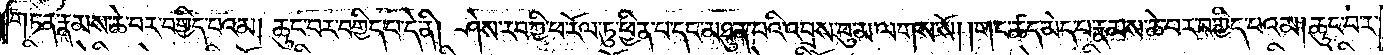གཏན་རྣམས་ཆེ་བར་བགྱིད་པའམ། ཆུང་བར་བགྱིད་པ་དེ་ནི། ཤེས་རབ་ཀྱི་ཕ་རོལ་ཏུ་ཕྱིན་པ་དང་མཐུན་པའི་འབྲས་བུ་མ་ལགས་སོ། །གང་ཚད་མེད་པ་རྣམས་ཆེ་བར་བགྱིད་པའམ། ཆུང་བར་
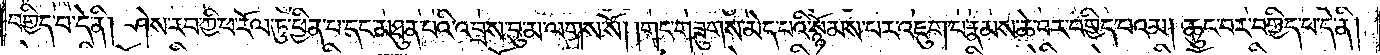བགྱིད་པ་དེ་ནི། ཤེས་རབ་ཀྱི་ཕ་རོལ་ཏུ་ཕྱིན་པ་དང་མཐུན་པའི་འབྲས་བུ་མ་ལགས་སོ། །གང་གཟུགས་མེད་པའི་སྙོམས་པར་འཇུག་པ་རྣམས་ཆེ་བར་བགྱིད་པའམ། ཆུང་བར་བགྱིད་པ་དེ་ནི།
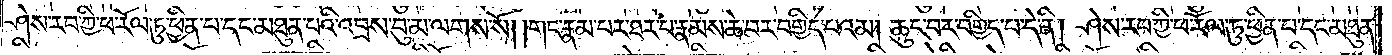ཤེས་རབ་ཀྱི་ཕ་རོལ་ཏུ་ཕྱིན་པ་དང་མཐུན་པའི་འབྲས་བུ་མ་ལགས་སོ། །གང་རྣམ་པར་ཐར་པ་རྣམས་ཆེ་བར་བགྱིད་པའམ། ཆུང་བར་བགྱིད་པ་དེ་ནི། ཤེས་རབ་ཀྱི་ཕ་རོལ་ཏུ་ཕྱིན་པ་དང་མཐུན་
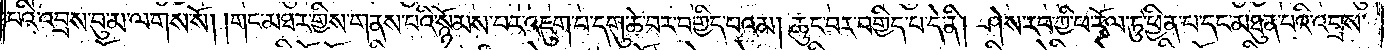པའི་འབྲས་བུ་མ་ལགས་སོ། །གང་མཐར་གྱིས་གནས་པའི་སྙོམས་པར་འཇུག་པ་དགུ་ཆེ་བར་བགྱིད་པའམ། ཆུང་བར་བགྱིད་པ་དེ་ནི། ཤེས་རབ་ཀྱི་ཕ་རོལ་ཏུ་ཕྱིན་པ་དང་མཐུན་པའི་འབྲས་
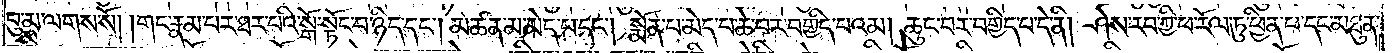བུ་མ་ལགས་སོ། །གང་རྣམ་པར་ཐར་པའི་སྒོ་སྟོང་པ་ཉིད་དང༌། མཚན་མ་མེད་པ་དང༌། སྨོན་པ་མེད་པ་ཆེ་བར་བགྱིད་པའམ། ཆུང་བར་བགྱིད་པ་དེ་ནི། ཤེས་རབ་ཀྱི་ཕ་རོལ་ཏུ་ཕྱིན་པ་དང་མཐུན་
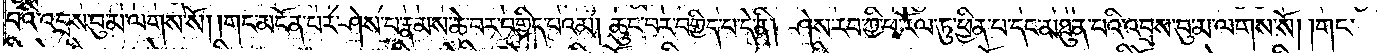པའི་འབྲས་བུ་མ་ལགས་སོ། །གང་མངོན་པར་ཤེས་པ་རྣམས་ཆེ་བར་བགྱིད་པའམ། ཆུང་བར་བགྱིད་པ་དེ་ནི། ཤེས་རབ་ཀྱི་ཕ་རོལ་ཏུ་ཕྱིན་པ་དང་མཐུན་པའི་འབྲས་བུ་མ་ལགས་སོ། །གང་
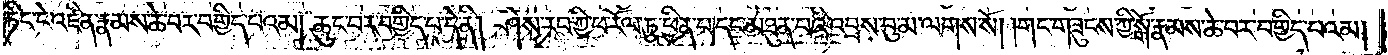ཏིང་ངེ་འཛིན་རྣམས་ཆེ་བར་བགྱིད་པའམ། ཆུང་བར་བགྱིད་པ་དེ་ནི། ཤེས་རབ་ཀྱི་ཕ་རོལ་ཏུ་ཕྱིན་པ་དང་མཐུན་པའི་འབྲས་བུ་མ་ལགས་སོ། །གང་གཟུངས་ཀྱི་སྒོ་རྣམས་ཆེ་བར་བགྱིད་པའམ།
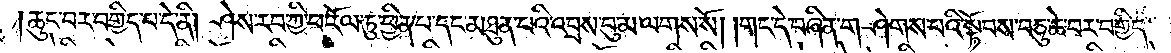ཆུང་བར་བགྱིད་པ་དེ་ནི། ཤེས་རབ་ཀྱི་ཕ་རོལ་ཏུ་ཕྱིན་པ་དང་མཐུན་པའི་འབྲས་བུ་མ་ལགས་སོ། །གང་དེ་བཞིན་གཤེགས་པའི་སྟོབས་བཅུ་ཆེ་བར་བགྱིད་
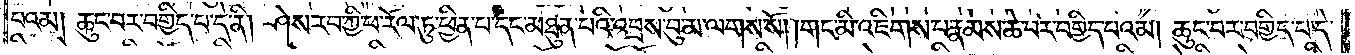པའམ། ཆུང་བར་བགྱིད་པ་དེ་ནི། ཤེས་རབ་ཀྱི་ཕ་རོལ་ཏུ་ཕྱིན་པ་དང་མཐུན་པའི་འབྲས་བུ་མ་ལགས་སོ། །གང་མི་འཇིགས་པ་རྣམས་ཆེ་བར་བགྱིད་པའམ། ཆུང་བར་བགྱིད་པ་དེ་
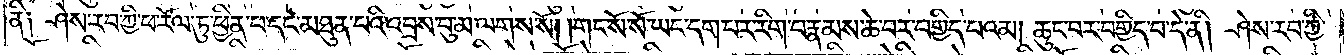ནི༑ ཤེས་རབ་ཀྱི་ཕ་རོལ་ཏུ་ཕྱིན་པ་དང་མཐུན་པའི་འབྲས་བུ་མ་ལགས་སོ། །གང་སོ་སོ་ཡང་དག་པར་རིག་པ་རྣམས་ཆེ་བར་བགྱིད་པའམ། ཆུང་བར་བགྱིད་པ་དེ་ནི། ཤེས་རབ་ཀྱི་
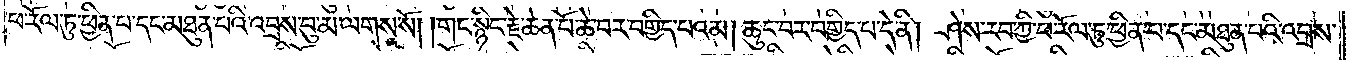ཕ་རོལ་ཏུ་ཕྱིན་པ་དང་མཐུན་པའི་འབྲས་བུ་མ་ལགས་སོ། །གང་སྙིང་རྗེ་ཆེན་པོ་ཆེ་བར་བགྱིད་པའམ། ཆུང་བར་བགྱིད་པ་དེ་ནི། ཤེས་རབ་ཀྱི་ཕ་རོལ་ཏུ་ཕྱིན་པ་དང་མཐུན་པའི་འབྲས་
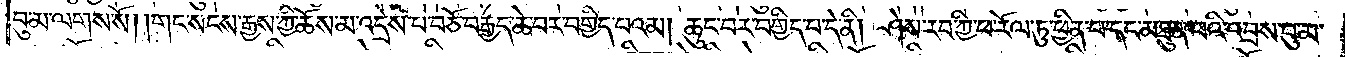བུ་མ་ལགས་སོ། །གང་སངས་རྒྱས་ཀྱི་ཆོས་མ་འདྲེས་པ་བཅོ་བརྒྱད་ཆེ་བར་བགྱིད་པའམ། ཆུང་བར་བགྱིད་པ་དེ་ནི། ཤེས་རབ་ཀྱི་ཕ་རོལ་ཏུ་ཕྱིན་པ་དང་མཐུན་པའི་འབྲས་བུ་མ་
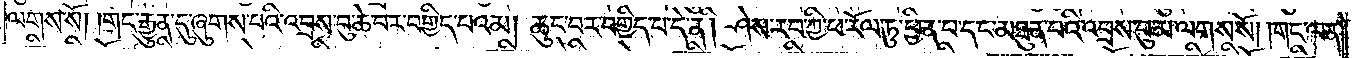ལགས་སོ། །གང་རྒྱུན་དུ་ཞུགས་པའི་འབྲས་བུ་ཆེ་བར་བགྱིད་པའམ། ཆུང་བར་བགྱིད་པ་དེ་ནི། ཤེས་རབ་ཀྱི་ཕ་རོལ་ཏུ་ཕྱིན་པ་དང་མཐུན་པའི་འབྲས་བུ་མ་ལགས་སོ། །གང་ལན་
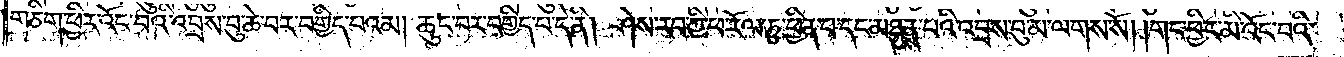གཅིག་ཕྱིར་འོང་བའི་འབྲས་བུ་ཆེ་བར་བགྱིད་པའམ། ཆུང་བར་བགྱིད་པ་དེ་ནི། ཤེས་རབ་ཀྱི་ཕ་རོལ་ཏུ་ཕྱིན་པ་དང་མཐུན་པའི་འབྲས་བུ་མ་ལགས་སོ། །གང་ཕྱིར་མི་འོང་བའི་
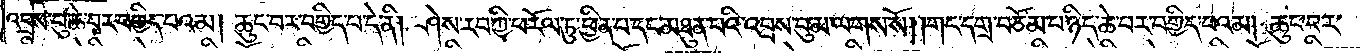འབྲས་བུ་ཆེ་བར་བགྱིད་པའམ། ཆུང་བར་བགྱིད་པ་དེ་ནི། ཤེས་རབ་ཀྱི་ཕ་རོལ་ཏུ་ཕྱིན་པ་དང་མཐུན་པའི་འབྲས་བུ་མ་ལགས་སོ། །གང་དགྲ་བཅོམ་པ་ཉིད་ཆེ་བར་བགྱིད་པའམ། ཆུང་བར་
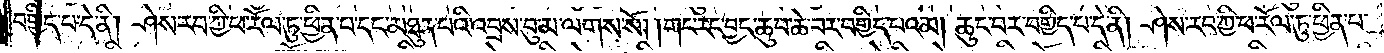བགྱིད་པ་དེ་ནི། ཤེས་རབ་ཀྱི་ཕ་རོལ་ཏུ་ཕྱིན་པ་དང་མཐུན་པའི་འབྲས་བུ་མ་ལགས་སོ། །གང་རང་བྱང་ཆུབ་ཆེ་བར་བགྱིད་པའམ། ཆུང་བར་བགྱིད་པ་དེ་ནི། ཤེས་རབ་ཀྱི་ཕ་རོལ་ཏུ་ཕྱིན་པ་
